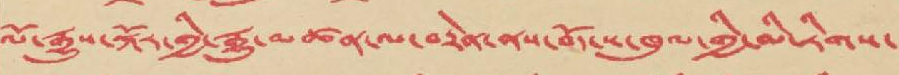ལོ་རྒྱུས་སྐོར་གྱི་རྒྱུ་མཚན་ལ་བརྟེན་ནས་བོད་ས་ཁུལ་གྱི་མི་རིགས་
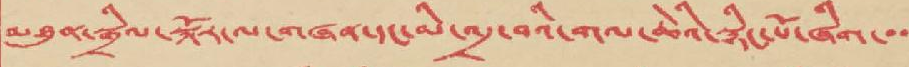མཐུན་སྒྲིལ་སྐོར་ལ་གཞན་དང་མི་འདྲ་བའི་གལ་ཆེའི་སྙིང་པོ་ཞིག་་་
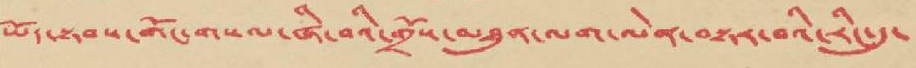ཡོད་སྟབས་གོང་གསལ་ཞི་བའི་གྲོས་མཐུན་ལག་ལེན་བསྟར་བའི་རིང་དུ་
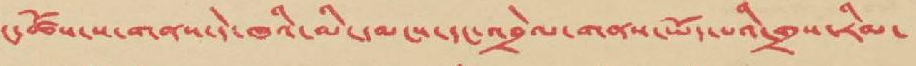ང་ཚོས་ས་གནས་དེ་ཁའི་མི་དམངས་དང་འབྲེལ་གནས་ཡོད་པའི་གྲས་རིམ་
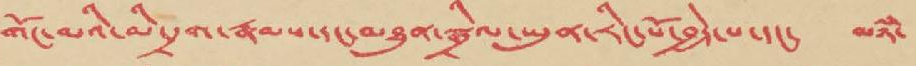གོང་མའི་མི་དྲག་རྣམས་དང་མཐུན་སྒྲིལ་ཡུན་རིང་པོ་བྱེད་པ་དང་ མཉཾ་
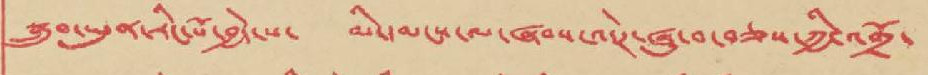སྒྲུབ་ཡུན་རིང་པོ་བྱེད་པ་ མི་དམངས་ལ་ཞབས་འདེཊ་ཞུ་བ་བཅས་ཀྱི་འགྲོ་
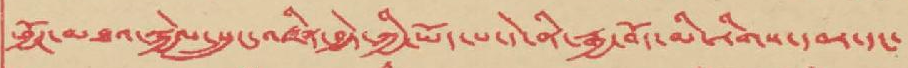ཕྱོཊ་མཐའ་སྐྱེལ་སྲུང་འཛིན་བྱེད་ཀྱི་ཡོད་པ་དེ་ནི་རྒྱ་བོད་མི་རིགས་དབར་དང་
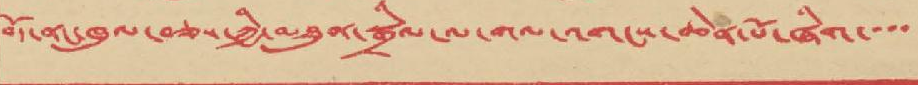བོད་ནང་ཁུལ་བཅས་ཀྱི་མཐུན་སྒྲིལ་ལ་གལ་འགངས་ཆེན་པོ་ཞིག་་་་
